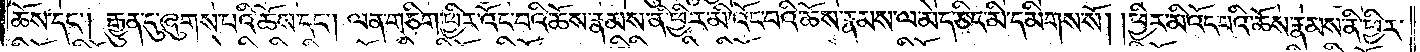ཆོས་དང༌། རྒྱུན་དུ་ཞུགས་པའི་ཆོས་དང༌། ལན་ཅིག་ཕྱིར་འོང་བའི་ཆོས་རྣམས་ནི་ཕྱིར་མི་འོང་བའི་ཆོས་རྣམས་ལ་མེད་ཅིང་མི་དམིགས་སོ། །ཕྱིར་མི་འོང་བའི་ཆོས་རྣམས་ནི་ཕྱིར་
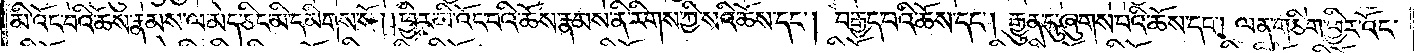མི་འོང་བའི་ཆོས་རྣམས་ལ་མེད་ཅིང་མི་དམིགས་སོ། །ཕྱིར་མི་འོང་བའི་ཆོས་རྣམས་ནི་རིགས་ཀྱི་སའི་ཆོས་དང༌། བརྒྱད་པའི་ཆོས་དང༌། རྒྱུན་དུ་ཞུགས་པའི་ཆོས་དང༌། ལན་གཅིག་ཕྱིར་འོང་
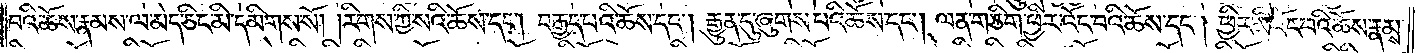བའི་ཆོས་རྣམས་ལ་མེད་ཅིང་མི་དམིགས་སོ། །རིགས་ཀྱི་སའི་ཆོས་དང༌། བརྒྱད་པའི་ཆོས་དང༌། རྒྱུན་དུ་ཞུགས་པའི་ཆོས་དང༌། ལན་ཅིག་ཕྱིར་འོང་བའི་ཆོས་དང༌། ཕྱིར་མི་འོང་བའི་ཆོས་རྣམས་
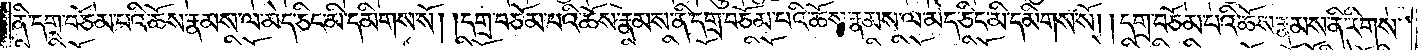ནི་དགྲ་བཅོམ་པའི་ཆོས་རྣམས་ལ་མེད་ཅིང་མི་དམིགས་སོ། །དགྲ་བཅོམ་པའི་ཆོས་རྣམས་ནི་དགྲ་བཅོམ་པའི་ཆོས་རྣམས་ལ་མེད་ཅིང་མི་དམིགས་སོ། །དགྲ་བཅོམ་པའི་ཆོས་རྣམས་ནི་རིགས་
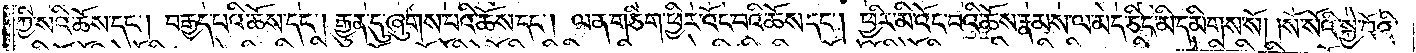ཀྱི་སའི་ཆོས་དང༌། བརྒྱད་པའི་ཆོས་དང༌། རྒྱུན་དུ་ཞུགས་པའི་ཆོས་དང༌། ལན་ཅིག་ཕྱིར་འོང་བའི་ཆོས་དང༌། ཕྱིར་མི་འོང་བའི་ཆོས་རྣམས་ལ་མེད་ཅིང་མི་དམིགས་སོ། །སོ་སོའི་སྐྱེ་བོའི་
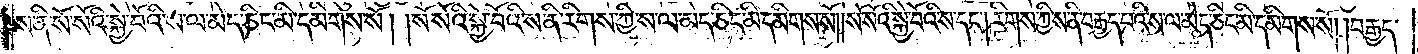ས་ནི་སོ་སོའི་སྐྱེ་བོའི་ས་ལ་མེད་ཅིང་མི་དམིགས་སོ། །སོ་སོའི་སྐྱེ་བོའི་ས་ནི་རིགས་ཀྱི་ས་ལ་མེད་ཅིང་མི་དམིགས་སོ། །སོ་སོའི་སྐྱེ་བོའི་ས་དང༌། རིགས་ཀྱི་ས་ནི་བརྒྱད་པའི་ས་ལ་མེད་ཅིང་མི་དམིགས་སོ། །བརྒྱད་
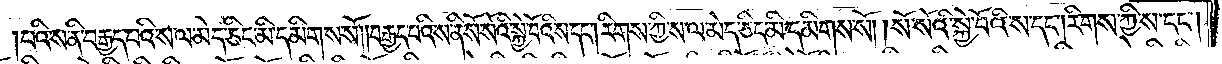པའི་ས་ནི་བརྒྱད་པའི་ས་ལ་མེད་ཅིང་མི་དམིགས་སོ། །བརྒྱད་པའི་ས་ནི་སོ་སོའི་སྐྱེ་བོའི་ས་དང༌། རིགས་ཀྱི་ས་ལ་མེད་ཅིང་མི་དམིགས་སོ། །སོ་སོའི་སྐྱེ་བོའི་ས་དང༌། རིགས་ཀྱི་ས་དང༌།
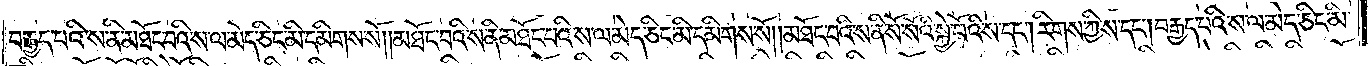བརྒྱད་པའི་ས་ནི་མཐོང་བའི་ས་ལ་མེད་ཅིང་མི་དམིགས་སོ། །མཐོང་བའི་ས་ནི་མཐོང་བའི་ས་ལ་མེད་ཅིང་མི་དམིགས་སོ། །མཐོང་བའི་ས་ནི་སོ་སོའི་སྐྱེ་བོའི་ས་དང༌། རིགས་ཀྱི་ས་དང༌། བརྒྱད་པའི་ས་ལ་མེད་ཅིང་མི་
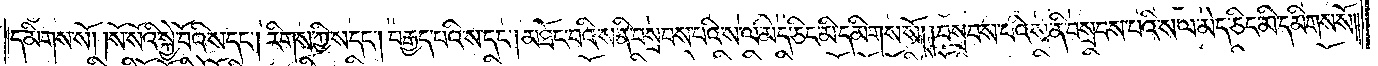དམིགས་སོ། །སོ་སོའི་སྐྱེ་བོའི་ས་དང༌། རིགས་ཀྱི་ས་དང༌། བརྒྱད་པའི་ས་དང༌། མཐོང་བའི་ས་ནི་བསྲབས་པའི་ས་ལ་མེད་ཅིང་མི་དམིགས་སོ། །བསྲབས་པའི་ས་ནི་བསྲབས་པའི་ས་ལ་མེད་ཅིང་མི་དམིགས་སོ། །
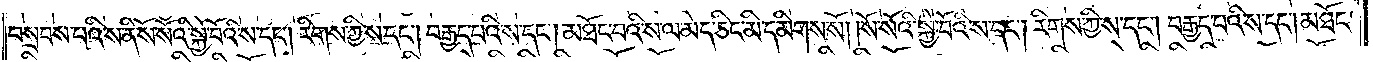བསྲབས་པའི་ས་ནི་སོ་སོའི་སྐྱེ་བོའི་ས་དང༌། རིགས་ཀྱི་ས་དང༌། བརྒྱད་པའི་ས་དང༌། མཐོང་བའི་ས་ལ་མེད་ཅིང་མི་དམིགས་སོ། །སོ་སོའི་སྐྱེ་བོའི་ས་དང༌། རིགས་ཀྱི་ས་དང༌། བརྒྱད་པའི་ས་དང༌། མཐོང་
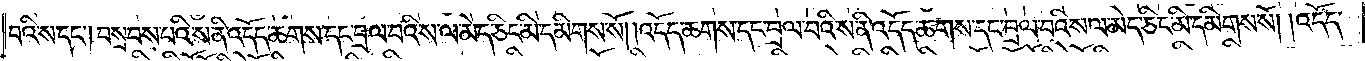བའི་ས་དང༌། བསྲབས་པའི་ས་ནི་འདོད་ཆགས་དང་བྲལ་བའི་ས་ལ་མེད་ཅིང་མི་དམིགས་སོ། །འདོད་ཆགས་དང་བྲལ་བའི་ས་ནི་འདོད་ཆགས་དང་བྲལ་བའི་ས་ལ་མེད་ཅིང་མི་དམིགས་སོ། །འདོད་
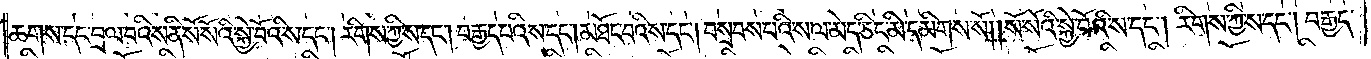ཆགས་དང་བྲལ་བའི་ས་ནི་སོ་སོའི་སྐྱེ་བོའི་ས་དང༌། རིགས་ཀྱི་ས་དང༌། བརྒྱད་པའི་ས་དང༌། མཐོང་བའི་ས་དང༌། བསྲབས་པའི་ས་ལ་མེད་ཅིང་མི་དམིགས་སོ། །སོ་སོའི་སྐྱེ་བོའི་ས་དང་རིགས་ཀྱི་ས་དང༌། བརྒྱད་
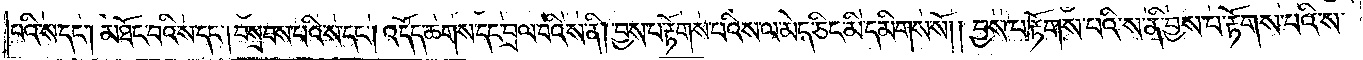པའི་ས་དང༌། མཐོང་བའི་ས་དང༌། བསྲབས་པའི་ས་དང༌། འདོད་ཆགས་དང་བྲལ་བའི་ས་ནི། བྱས་པ་རྟོགས་པའི་ས་ལ་མེད་ཅིང་མི་དམིགས་སོ། །བྱས་པ་རྟོགས་པའི་ས་ནི་བྱས་པ་རྟོགས་པའི་ས་
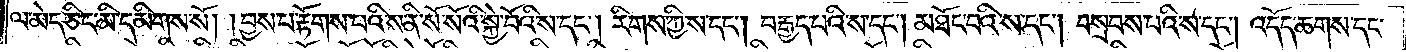ལ་མེད་ཅིང་མི་དམིགས་སོ། །བྱས་པ་རྟོགས་པའི་ས་ནི་སོ་སོའི་སྐྱེ་བོའི་ས་དང༌། རིགས་ཀྱི་ས་དང༌། བརྒྱད་པའི་ས་དང༌། མཐོང་བའི་ས་དང༌། བསྲབས་པའི་ས་དང༌། འདོད་ཆགས་དང་བྲལ་
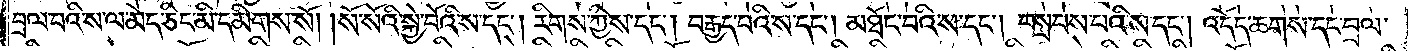བའི་ས་ལ་མེད་ཅིང་མི་དམིགས་སོ། །སོ་སོའི་སྐྱེ་བོའི་ས་དང༌། རིགས་ཀྱི་ས་དང༌། བརྒྱད་པའི་ས་དང༌། མཐོང་བའི་ས་དང༌། བསྲབས་པའི་ས་དང༌། འདོད་ཆགས་དང་བྲལ་
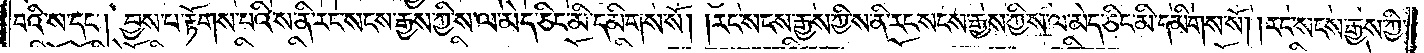བའི་ས་དང༌། བྱས་པ་རྟོགས་པའི་ས་ནི་རང་སངས་རྒྱས་ཀྱི་ས་ལ་མེད་ཅིང་མི་དམིགས་སོ། །རང་སངས་རྒྱས་ཀྱི་ས་ནི་རང་སངས་རྒྱས་ཀྱི་ས་ལ་མེད་ཅིང་མི་དམིགས་སོ། །རང་སངས་རྒྱས་ཀྱི་
